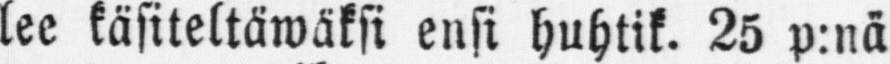lee käsiteltäwäksi ensi huhtik. 25 p:nä
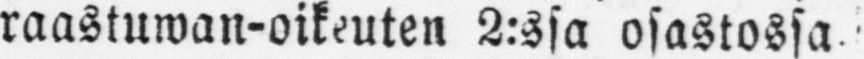raastuwan-oikeuten 2:ssa osastossa.
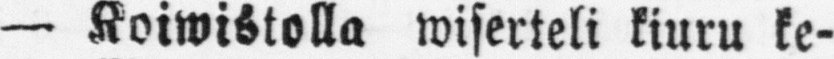— Koiwistolla wiserteli kiuru ke-
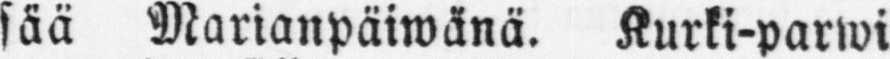sää Marianpäiwänä. Kurki-parwi
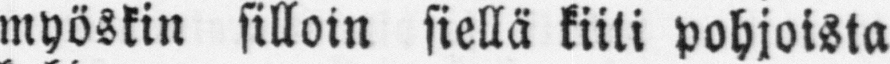myöskin silloin siellä kiiti pohjoista
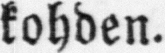kohden.
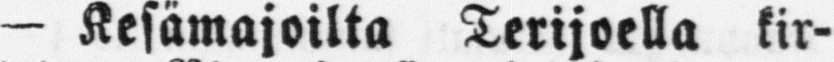— Kesämajoilta Terijoella kir-
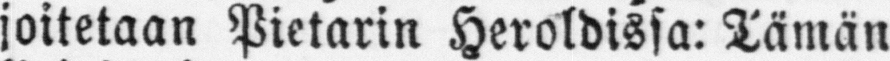joitetaan Pietarin Heroldissa: Tämän
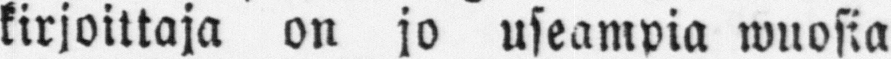kirjoittaja on jo useampia wuosia
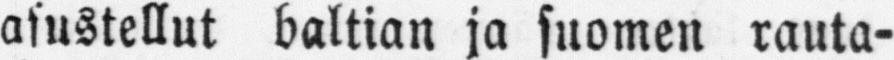asustellut baltian ja suomen rauta-
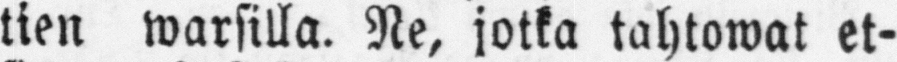tien warsilla. Ne, jotka tahtowat et-
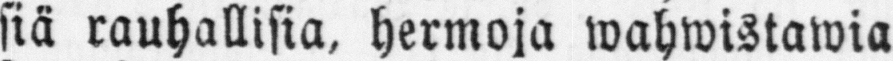siä rauhallisia, hermoja wahwistawia
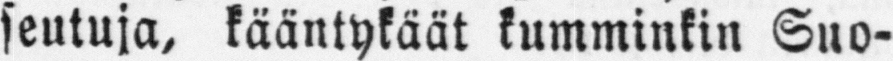seutuja, kääntykäät kumminkin Suo-
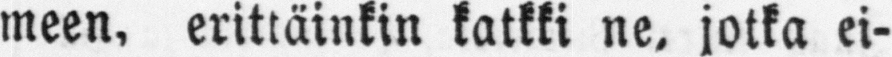meen, erittäinkin katkki ne, jotka ei-
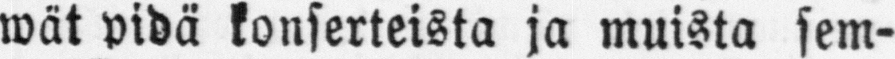wät pidä konserteista ja muista sem-
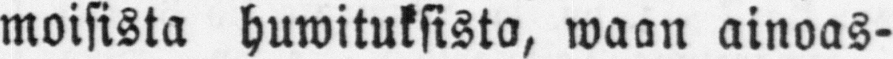moisista huwituksista, waan ainoas-
